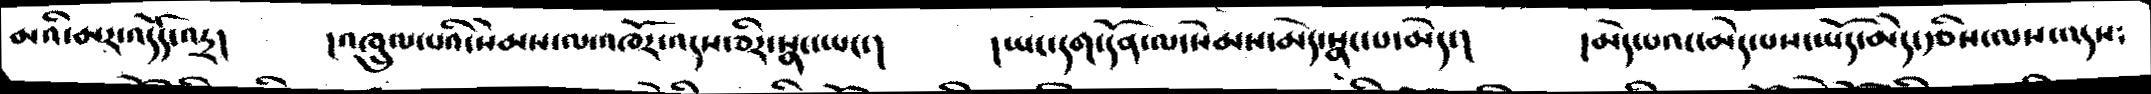མའི་མར་འདོད་འདྲ།   །འཁྲུལ་པའི་སེམས་ལ་འཁོར་འདས་ཅིར་སྣང་ཡང་།   །ཡང་དག་དོན་ལ་སེམས་མེད་སྣང་པ་མེད་།   །མེད་པའང་མེད་པས་ཡོད་མེད་རྩིས་ལས་འདས༴
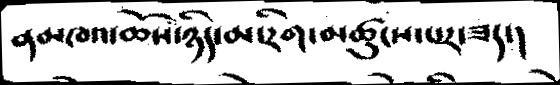ནམཁའ་ཆོས་ཉིད་མ་རིག་མཚུངས་པར་ཟད་།
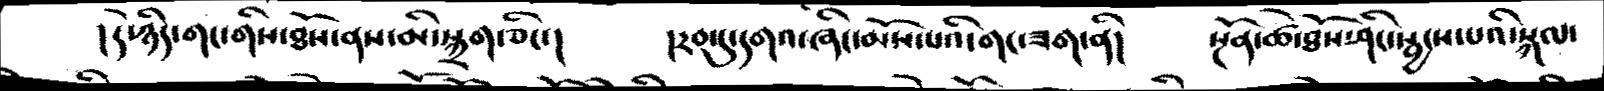།དེ་ཉིད་གང་གིས་ཐོས་ནས་མི་སྐྲག་ཅིང་།   །རབ་དུ་དགའ་ཞིང་མོས་པའི་གང་ཟག་ནི།   སྔོན་ཚེ་ཐོས་ཤིང་སྦྱངས་པའི་སྐལ་
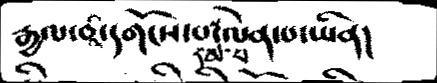རྒྱལ་བའི་དགོངས་པ་དམ་པ་ལེན་པ་ཡིན།
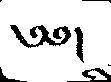༄༅།
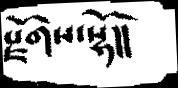རྫོགས་སྷོ།།
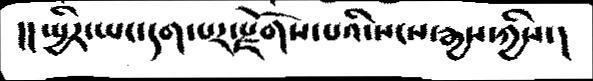།།སྤྱིར་ཡང་གད་པར་རྫོགས་པའི་སངས་རྒྱས་ཀྱིས་།
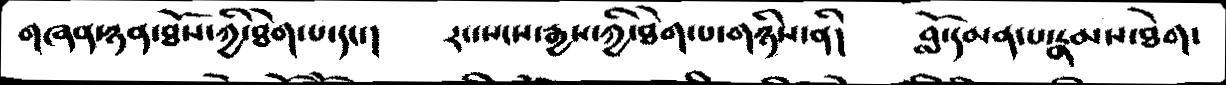གཞན་ཉན་ཐོས་ཀྱི་ཐེག་པ་དང་།   རང་སངས་རྒྱས་ཀྱི་ཐེག་པ་གཉིས་ནི།   བློ་དམན་པ་རྣམས་ཐེག་
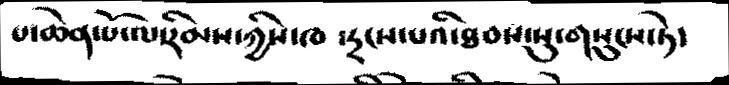པ་ཆེན་པོ་ལ་རིམས་ཀྱིས་ཁ ་དྲངས་པའི་ཐབས་སུ་གསུངས་ཏེ་
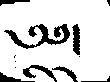༄༅།
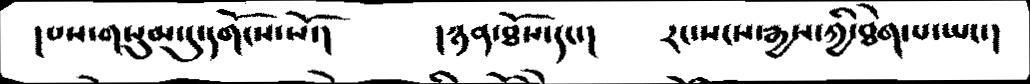།པས་གསུམ་དུ་དགོངས་སོ་།    །ཉན་ཐོས་དང་།   རང་སངས་རྒྱས་ཀྱི་ཐེག་པ་ཡང་།
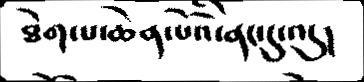ཐེག་པ་ཆེན་པོའི་ནང་དུ་འདུ།
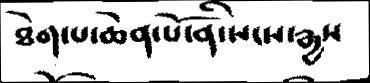ཐེག་པ་ཆེན་པོ་ནི་སངས་རྒྱས
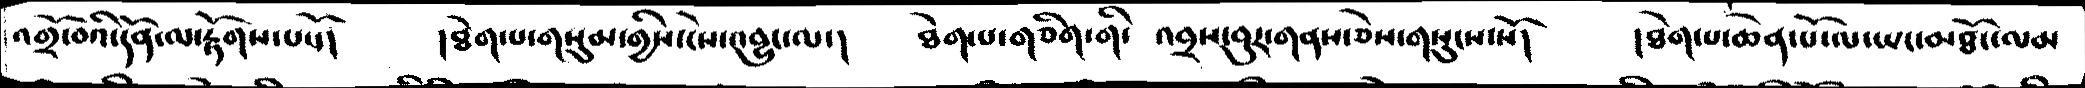འགྲོ་བའི་དོན་ལ་རྟོགས་པསོ།   །ཐེག་པ་གསུམ་གྱིས་ངེས་འབྱུང་ལ་།   ཐེག་པ་གཅིག་གི་ འབྲས་བུར་གནས་ཅེས་གསུངས་སོ།   །ཐེག་པ་ཆེན་པོ་ལ་ཡང་མཐོང་ལམ
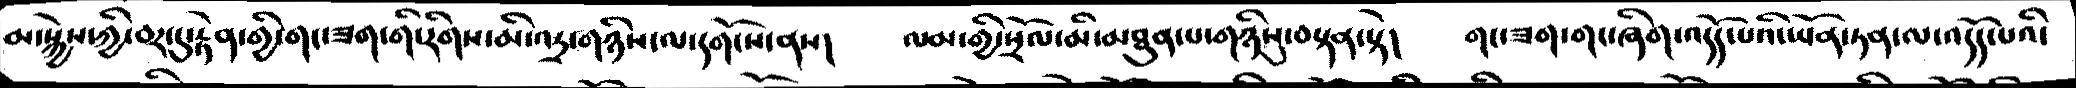མ་སྐྱེས་ཀྱི་བར་དུ་རྟེན་གྱི་གང་ཟག་གི་རིགས་མི་འདྲ་གཉིས་ལ་དགོངས་ནས།   ལམ་གྱི་སྲོལ་མི་མཐུན་པ་གཉིསུ་བསྟན་སྟེ།   གང་ཟག་གང་ཞིག་འདོད་པའི་ཡོན་ཏན་ལ་འདོད་པའི་
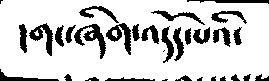།གང་ཞིག་འདོད་པའི་
